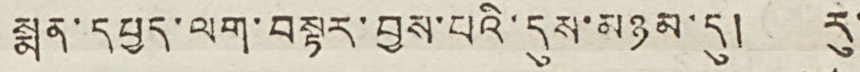སྨན་དཔྱད་ལག་བསྟར་བྱས་པའི་དུས་མཉམ་དུ། རུ་
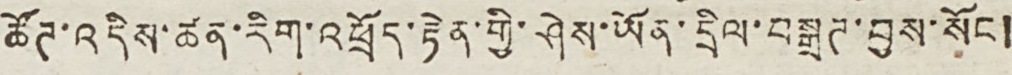ཚོཊ་འདིས་ཚན་རིག་འཕྲོད་རྟེན་གྱི་ཤེས་ཡོན་དྲིལ་བསྒྲཊ་བྱས་སོང །
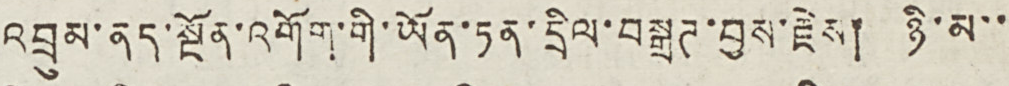འབྲུམ་ནད་སྔོན་འགོག་གི་ཡོན་ཏན་དྲིལ་བསྒྲཊ་བྱས་རྗེས། ཉི་མ་་
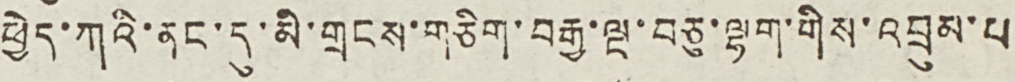ཕྱེད་ཀའི་ནང་དུ་མི་གྲངས་གཅིག་བརྒྱ་ལྔ་བཅུ་ལྷག་གིས་འབྲུམ་པ
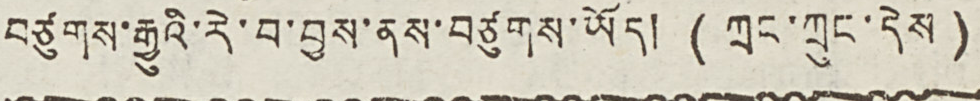བཙུགས་རྒྱུའི་རེ་བ་བྱས་ནས་བཙུགས་ཡོད། ( ཀྲང་ཀྲུང་དེས )
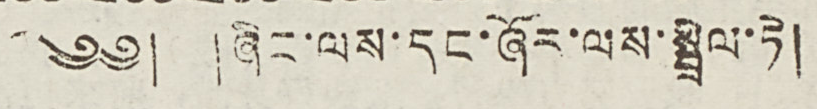༄༅། །ཞིང་ལས་དང་ཞོར་ལས་སྦྲེལ་ཏེ།
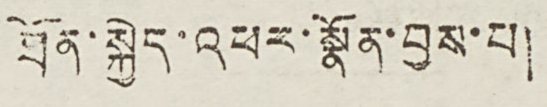ཐོན་སྐྱེད་འཕར་སྣོན་བྱས་པ།
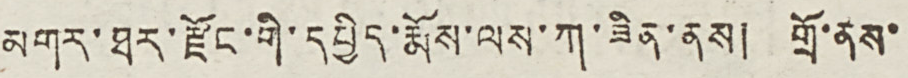མགར་ཐར་རྫོང་གི་དཔྱིད་རྨོས་ལས་ཀ་ཟིན་ནས། གྲོ་ནས་
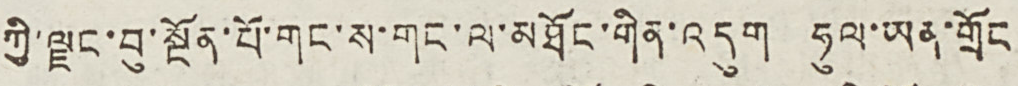ཀྱི་ལྗང་བུ་སྔོན་པོ་གང་ས་གང་ལ་མཐོང་གིན་འདུག ཧུལ་ཡན་གྲོང
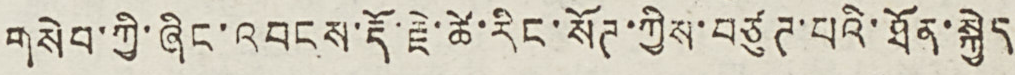གསེབ་ཀྱི་ཞིང་འབངས་རྡོ་རྗེ་ཚེ་རིང་སོཊ་ཀྱིས་བཙུཊ་པའི་ཐོན་སྐྱེད
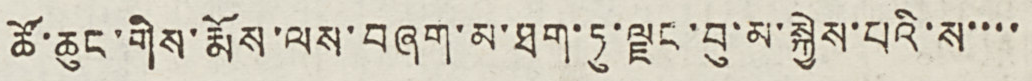ཚོ་ཆུང་གིས་རྨོས་ལས་བཞག་མ་ཐག་ཏུ་ལྗང་བུ་མ་སྐྱེས་པའི་ས་་་་
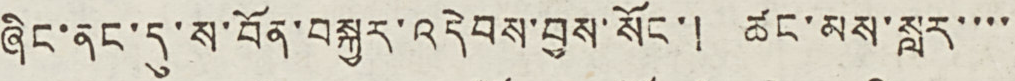ཞིང་ནང་དུ་ས་བོན་བསྐྱར་འདེབས་བྱས་སོང་། ཚང་མས་སླར་་་་
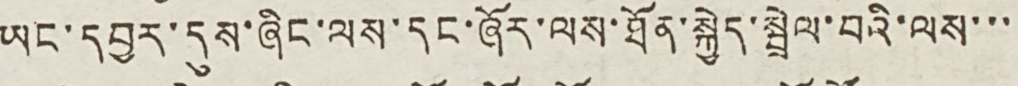ཡང་དབྱར་དུས་ཞིང་ལས་དང་ཞོར་ལས་ཐོན་སྐྱེད་སྦྲེལ་བའི་ལས་་་
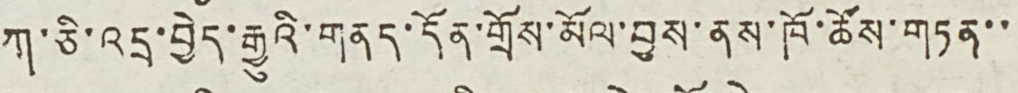ཀ་ཅི་འདྲ་བྱེད་རྒྱུའི་གནད་དོན་གྲོས་མོལ་བྱས་ནས་ཁོ་ཚོས་གཏན་་
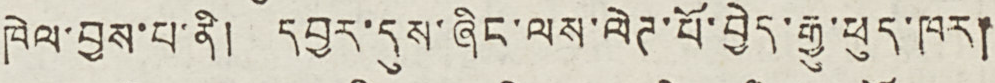ཁེལ་བྱས་པ་ནི། དབྱར་དུས་ཞིང་ལས་ལེཊ་པོ་བྱེད་རྒྱུ་ཕུད་ཁར།
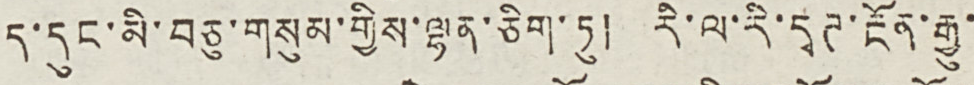ད་དུང་མི་བཅུ་གསུམ་གྱིས་ལྷན་ཅིག་ཏུ། རི་ལ་རི་དྭཊ་རྔོན་རྒྱུ་
